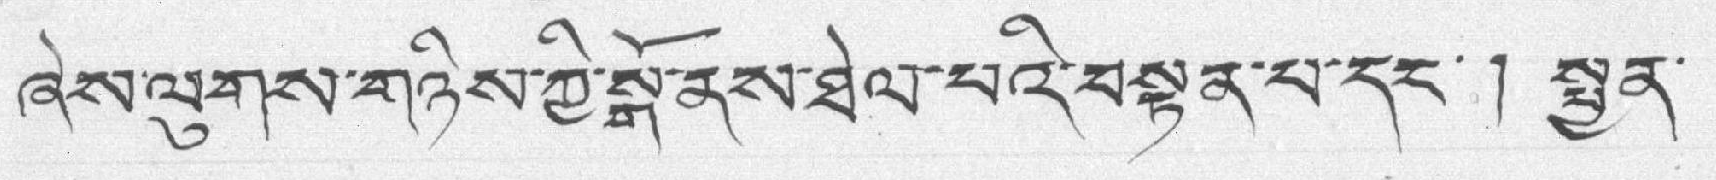ཞེས་ལེགས་གཉིས་ཀྱི་སྒོ་ནས་ཐེལ་པའི་བསྟན་པ་དང་ ། སྦྱན་
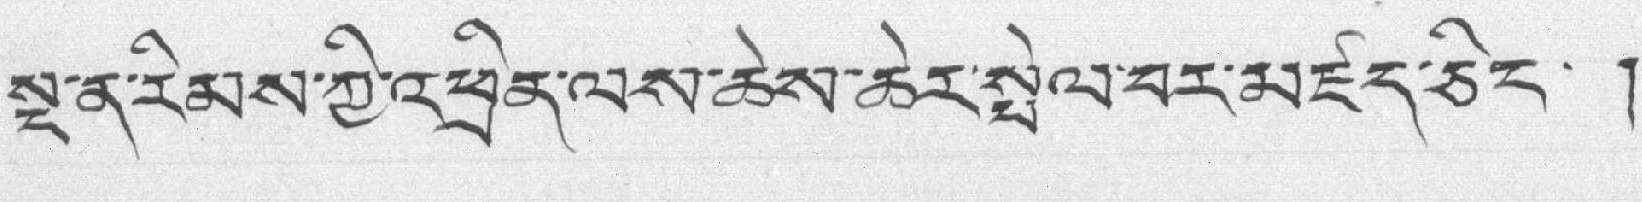སྔ་ན་རིམས་ཀྱི་འཕྲིན་ལས་ཆེས་ཆེར་སྤེལ་བར་མཛད་ཅིང་ །
